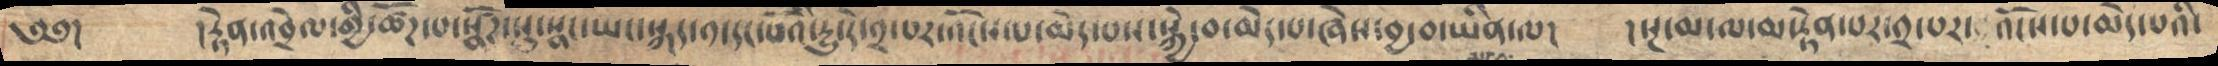༄༅།     །རྟེན་འབྲེལ་གྱི་ཚོཌ་པ་སྣཚོཌ་སུ་སྣང་ཡང་སྐད་༡་དང་པོའི་དྱུ་དེ་༢་པར་འོངས་པ་མེད་པས་སྐྱེ་བ་མེད་པ་ཞེས་བྱ་བ་ཡིན་ལ།     ། སྔ་མ་ལ་མ་རྟེན་པར་༢་པར་འོངས་པ་མེད་པའི་
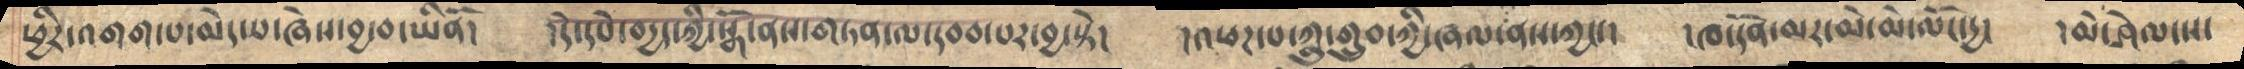ཕྱིར་འགག་༷པ་མེད་པ་ཞེས་བྱ་བ་ཡིནོ།     །དེ་དཔེ་བདྱད་ཀྱི་སྒོ་ནས་གཏན་ལ་དབབ་པར་བྱ་སྟེ།    །འཕཌ་པ་ཀླུ་གྲུབ་ཀྱི་ཞལ་ནས་ཀྱང་།    །ཁ་དོག་མར་མེ་མེ་ལོང་དྱ།   །མེ་ཤེལ་ས་
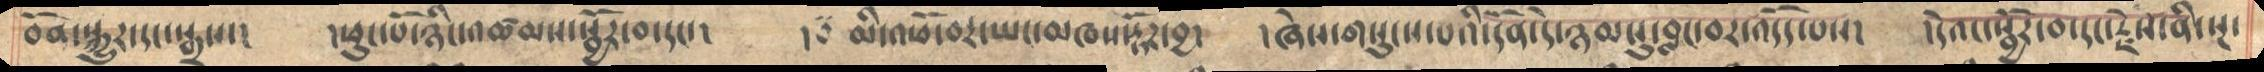བོན་སྐྱུར་དང་སྒྲས་།    །ཕུང་པོ་ཉིང་འཚམས་སྦྱོར་བ་དང་།     ། མི་འཕོ་བར་ཡང་མཁས་རྟོཌ་བྱ།   །ཞེས་གསུངས་པའི་དོན་དེ་ཉམསུ་བླང་བར་འདོད་པས།   །དེའང་སྦྱོར་བ་དང་རྗེས་ནི་སྔ་
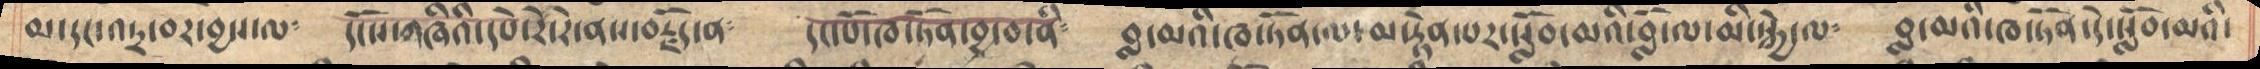མ་དང་འདྲ་བར་བྱས་ལ༴     དངོས་གཞིའི་དཔེ་རེ་རེ་ནས་བརྗོད་ན༴      དང་པོ་ཁ་ཏོན་བྱ་བ་ནི༴     བླ་མའི་ཁ་ཏོན་ལ་མ་རྟེན་པར་སློབ་མའི་བློ་ལ་མི་སྐྱེ་ལ༴   བླ་མའི་ཁ་ཏོན་དེ་སློབ་མའི་
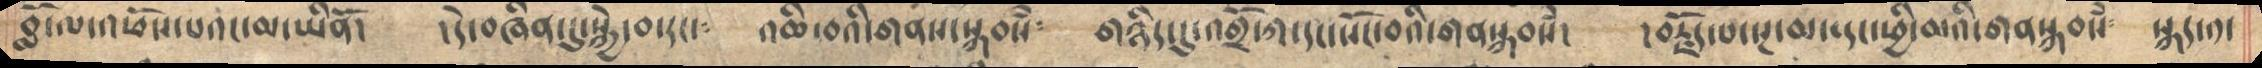བློ་ལ་འཕོས་པའང་མ་ཡིནོ།   །དེ་བཞིན་དུ་སྐྱེ་བ་དང་༴     འཆི་བའི་གནས་སྐབསཾ༴    གཉིད་དུ་འགྲོ་ཀ་དང་སོང་བའི་གནསྐབསཾ།   །བརྗོད་པ་སྔ་མ་དང་ཕྱི་མའི་གནསྐབསཾ༴   སྐད་༡་
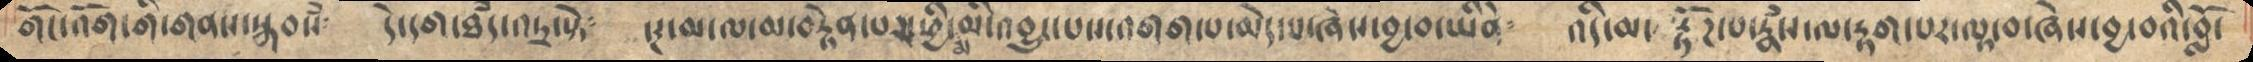གོང་འོག་གི་གནས་སྐབསཾ༴   དེ་དག་ཐཾད་འདྲ་སྟེ༴   སྔ་མ་ལ་མ་བརྟེན་པར་ཕྱི་མ་མི་འབྱུང་པས་འགག་པ་མེད་པ་ཞེས་བྱ་བ་ཡིནེ༴   འདི་མ་རྟོཌ་པ་རྣཾས་ལ་རྟག་པར་ལྟ་བ་ཞེས་བྱ་བའི་བློ་
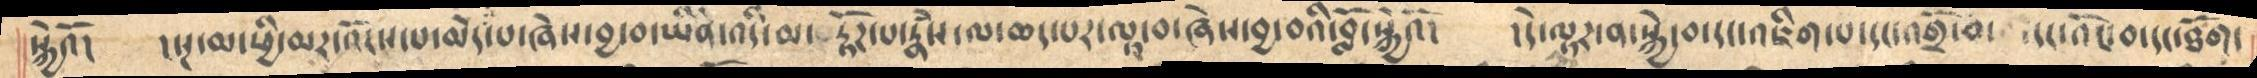སྐྱེའོ།    །སྔ་མ་ཕྱི་མར་འོངས་པ་མེད་པ་ཞེས་བྱ་བ་ཡིནེ་འདི་མ་རྟོཌ་པ་རྣཾས་ལ་ཆད་པར་ལྟ་བ་ཞེས་བྱ་བའི་བློ་སྐྱེའོ།    །དེ་ལྟར་ན་སྐྱེ་བ་དང་འཇིག་པ་དང་འགྲོ་བ་དང་འོང་བ་དང་ཐོག་
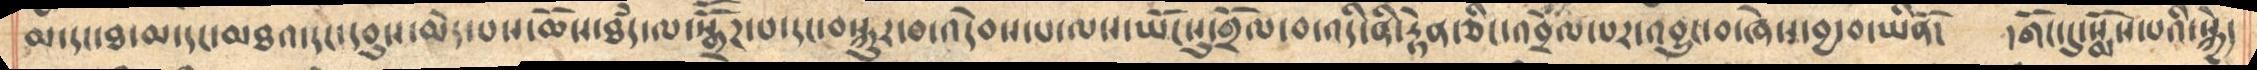མ་དང་ཐ་མ་དང་མཐའ་དང་དབུས་མེད་པས་ཆོས་ཐཾད་ལ་སྒྲོོཌ་པ་དང་བསྐུར་བ་འདེབས་པ་ལས་ཡོངསུ་གྲོལ་བ་འདི་ནི་རྟེན་ཅིང་འབྲེལ་པར་འབྱུང་བ་ཞེས་བྱ་བ་ཡིནོ།   །གོང་དུ་སྨོས་པའི་སྐྱེད
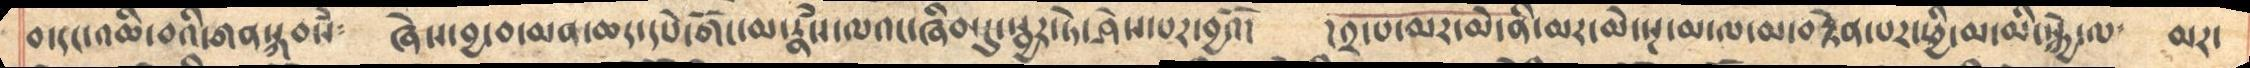བ་དང་འཆི་བའི་གནསྐབསཾ༴      ཞེས་བྱ་བ་མན་ཆད་དཔེ་གོང་མ་རྣཾས་ལའང་ཞིབ་དུ་སྦྱར་ཏེ་ཤེས་པར་བྱའོ།   །༢་པ་མར་མེ་ནི་མར་མེ་སྔ་མ་ལ་མ་བརྟེན་པར་ཕྱི་མ་མི་སྐྱེ་ལ༴    མར་
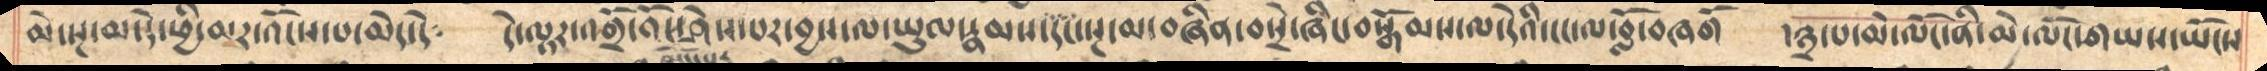མེ་སྔ་མ་དེ་ཕྱི་མར་འོངས་པ་མེད་དེ༴   དེ་ལྟར་འགྲོ་འོང་ཤེས་པར་བྱས་ལ་ཡུལ་རྣམས་དང་སྔ་མ་བཞིན་བསྲེ་ཞིང་བསྒོམས་ལ་དེའི་ངང་ལ་བློ་བཞགོ    །༣་པ་མེ་ལོང་ནི་མེ་ལོང་གཡས་ཡོངས
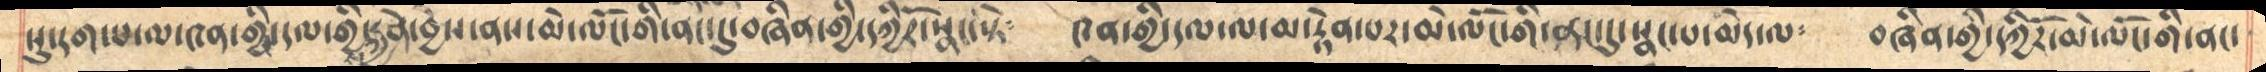སུ་དག་པ་ལ་༤ན་གྱིས་དལ་གྱིས་རྐྱེན་བྱས་ནས་མེ་ལོང་གི་ནང་དུ་བཞིན་གྱི་དཀྱིོར་སྣང་སྟེ༴  ༤ན་གྱི་དལ་ལ་མ་རྟེན་པར་མེ་ལོང་གི་ནང་དུ་སྣང་པ་མེད་ལ༴   བཞིན་གྱི་དཀྱིརོ་མེ་ལོང་གི་ནང་
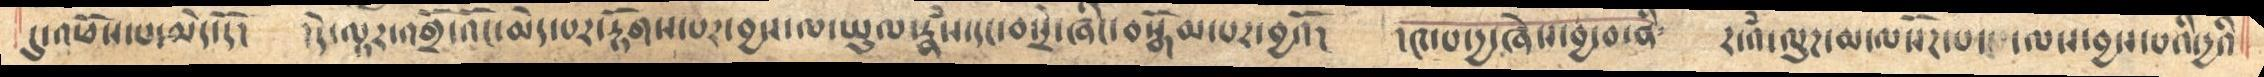དུ་འཕོས་པ་མེད་དོ་ །དེ་ལྟར་འགྲོ་འོང་མེད་པར་རྟོགས་པར་བྱས་ལ་ཡུལ་རྣཾས་དང་བསྲེ་ཞིང་བསྒོམ་པར་བྱའོ། །༤་པ་དྱ་ཞེས་བྱ་བ་ནི༴ ར་འཾ་ལུཌ་མ་ལསོཌ་པ་ ལས་བྱས་པའི་དྱའི
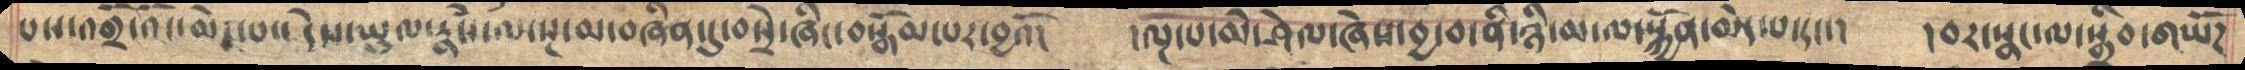པས་འགྲོ་འོང་མེད་པ་་དེས་ཡུལ་རྣཾས་ལ་སྔ་མ་བཞིན་དུ་བསྲེ་ཞིང་བསྒོམ་པར་བྱའོ།    །ལྔ་པ་མེ་ཤེལ་ཞེས་བྱ་བ་ནི་ཉི་མ་ལ་སྐྱོན་མེད་པ་དང་།   །བར་སྣང་ལ་སྒྲིབ་གཡོཌ
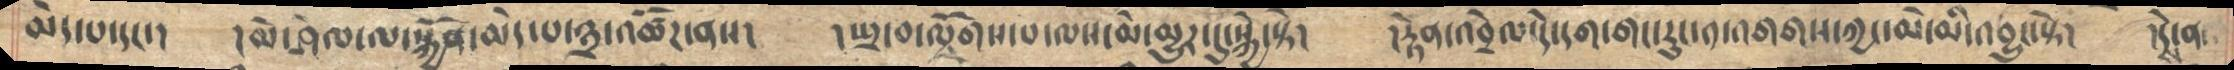མེད་པ་དང་།   །མེ་ཤེལ་ལ་སྐྱོན་མེད་པ་༣་འཚོཌ་ནས།   སྤྲ་བ་ལོགས་པ་ལས་མེ་མྱུར་དུ་སྐྱེ་སྟེ།   །རྟེན་འབྲེལ་དེ་དག་གང་རུང་༡་འགགས་ཀྱང་མེ་མི་འབྱུང་སྟེ།    །དེས་ན་
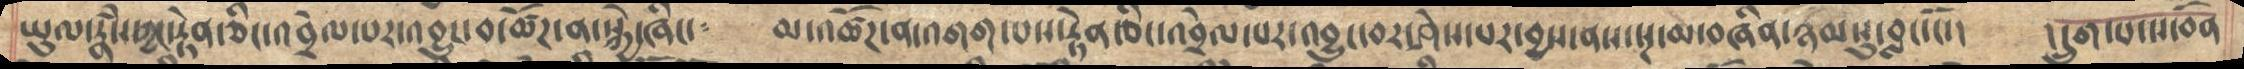ཡུལ་རྣཾས་ཀྱང་རྟེན་ཅིང་འབྲེལ་པར་འབྱུང་བ་ཚོཌ་ན་སྐྱེ་ཞིང་༴    མ་འཚོཌ་ན་འགག་པས་རྟེན་ཅིང་འབྲེལ་པར་འབྱུང་བར་ཤེས་པར་བྱས་ནས་སྔ་མ་བཞིན་ཉམསུ་བླང་ངོ་།    །དྲུག་པ་ས་བོན
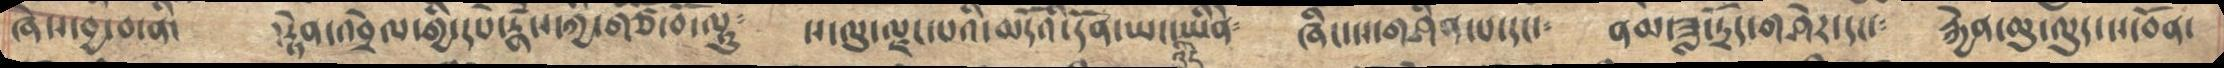ཞེས་བྱ་བ་ནི།   །རྟེན་འབྲེལ་གྱི་དཔེ་རྣཾས་ཀྱི་གཙོ་བོ་ལྟུ༴   ས་ལུ་ལྗང་པའི་མདོའི་དོན་ཡང་འདི་ཡིནེ༴  ཞིང་ས་གཤིན་པ་དང་༴  ནམ་ཟླ་དྲོད་གཤེར་དང་༴  རྐྱེན་ཆུ་ལུད་ས་བོན་
